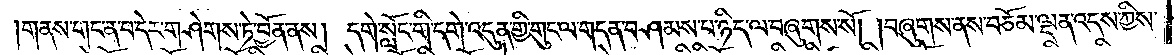གནས་གང་ན་བ་དེར་གཤེགས་ཏེ་བྱོན་ནས། དགེ་སློང་གི་དགེ་འདུན་གྱི་གུང་ལ་གདན་བཤམས་པ་ཉིད་ལ་བཞུགས་སོ། །བཞུགས་ནས་བཅོམ་ལྡན་འདས་ཀྱིས་
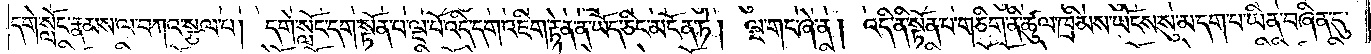དགེ་སློང་རྣམས་ལ་བཀའ་སྩལ་པ། དགེ་སློང་དག་སྟོན་པ་ལྔ་པོ་འདི་དག་འཇིག་རྟེན་ན་ཡོད་ཅིང་མངོན་ཏེ། ལྔ་གང་ཞེ་ན། འདི་ནི་སྟོན་པ་གཅིག་ནི་ཚུལ་ཁྲིམས་ཡོངས་སུ་མ་དག་པ་ཡིན་བཞིན་དུ་
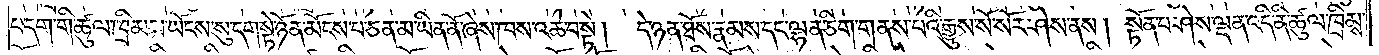བདག་གི་ཚུལ་ཁྲིམས་ཡོངས་སུ་དག་སྟེ་ཉོན་མོངས་པ་ཅན་མ་ཡིན་ནོ་ཞེས་ཁས་འཆེ་བ་སྟེ། དེ་ཉན་ཐོས་རྣམས་དང་ལྷན་ཅིག་གནས་པའི་རྒྱུས་སོ་སོར་ཤེས་ནས། སྟོན་པ་ཤེས་ལྡན་འདི་ནི་ཚུལ་ཁྲིམས་
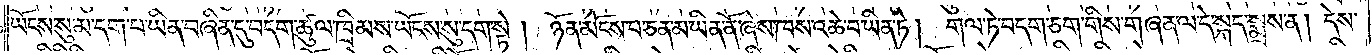ཡོངས་སུ་མ་དག་པ་ཡིན་བཞིན་དུ་བདག་ཚུལ་ཁྲིམས་ཡོངས་སུ་དག་སྟེ། ཉོན་མོངས་པ་ཅན་མ་ཡིན་ནོ་ཞེས་ཁས་འཆེ་བ་ཡིན་ཏེ། གལ་ཏེ་བདག་ཅག་གིས་གཞན་ལ་དེ་སྐད་སྨྲས་ན། དེས་
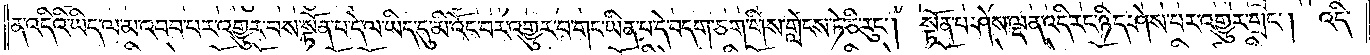ན་འདིའི་ཡིད་ལ་མ་འབབ་པར་འགྱུར་བས་སྟོན་པ་དེ་ལ་ཡིད་དུ་མི་འོང་བར་འགྱུར་བ་གང་ཡིན་པ་དེ་བདག་ཅག་གིས་གླེངས་ཏེ་ཅི་རུང༌། སྟོན་པ་ཤེས་ལྡན་འདི་རང་ཉིད་ཤེས་པར་འགྱུར་གྲང༌། །འདི་
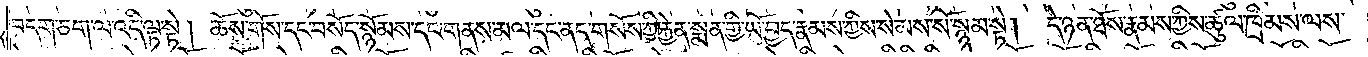བདག་ཅག་ལ་འདི་ལྟ་སྟེ། ཆོས་གོས་དང་བསོད་སྙོམས་དང་གནས་མལ་དང་ནད་གསོས་ཀྱི་རྐྱེན་སྨན་གྱི་ཡོ་བྱད་རྣམས་ཀྱིས་སེམས་སོ་སྙམ་སྟེ། དེ་ཉན་ཐོས་རྣམས་ཀྱིས་ཚུལ་ཁྲིམས་ལས་
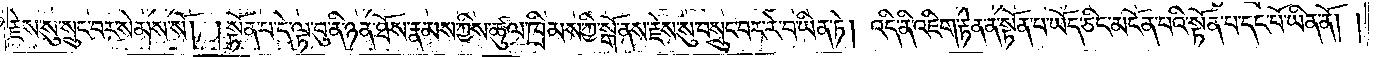རྗེས་སུ་སྲུང་བར་སེམས་སོ། །སྟོན་པ་དེ་ལྟ་བུ་ནི་ཉན་ཐོས་རྣམས་ཀྱིས་ཚུལ་ཁྲིམས་ཀྱི་སྒོ་ནས་རྗེས་སུ་བསྲུང་བར་རེ་བ་ཡིན་ཏེ། འདི་ནི་འཇིག་རྟེན་ན་སྟོན་པ་ཡོད་ཅིང་མངོན་པའི་སྟོན་པ་དང་པོ་ཡིན་ནོ། །
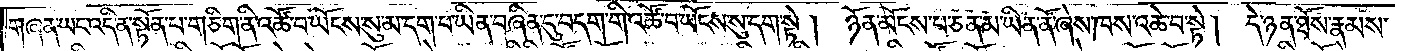གཞན་ཡང་འདི་ན་སྟོན་པ་གཅིག་ནི་འཚོ་བ་ཡོངས་སུ་མ་དག་པ་ཡིན་བཞིན་དུ་བདག་གི་འཚོ་བ་ཡོངས་སུ་དག་སྟེ།<gap>ཉོན་མོངས་པ་ཅན་མ་ཡིན་ནོ་ཞེས་ཁས་འཆེ་བ་སྟེ།  དེ་ཉན་ཐོས་རྣམས་
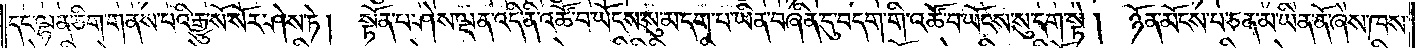དང་ལྷན་ཅིག་གནས་པའི་རྒྱུ་སོ་སོར་ཤེས་ཏེ། སྟོན་པ་ཤེས་ལྡན་འདི་ནི་འཚོ་བ་ཡོངས་སུ་མ་དག་པ་ཡིན་བཞིན་དུ་བདག་གི་འཚོ་བ་ཡོངས་སུ་དག་སྟེ། ཉོན་མོངས་པ་ཅན་མ་ཡིན་ནོ་ཞེས་ཁས་
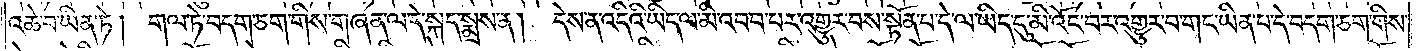འཆེ་བ་ཡིན་ཏེ། གལ་ཏེ་བདག་ཅག་གིས་གཞན་ལ་དེ་སྐད་སྨྲས་ན། དེས་ན་འདིའི་ཡིད་ལ་མི་འབབ་པར་འགྱུར་བས་སྟོན་པ་དེ་ལ་ཡིད་དུ་མི་འོང་བར་འགྱུར་བ་གང་ཡིན་པ་དེ་བདག་ཅག་གིས་
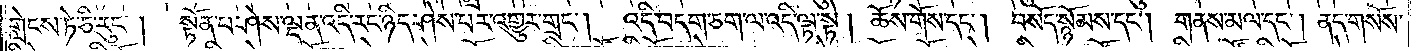གླེངས་ཏེ་ཅི་རུང༌།<gap>སྟོན་པ་ཤེས་ལྡན་འདི་རང་ཉིད་ཤེས་པར་འགྱུར་གྲང༌།<gap>འདི་བདག་ཅག་ལ་འདི་ལྟ་སྟེ། ཆོས་གོས་དང༌། བསོད་སྙོམས་དང༌། གནས་མལ་དང༌། ནད་གསོས་
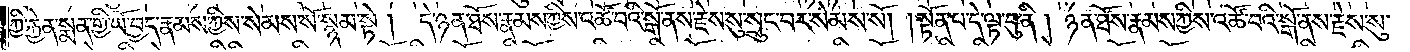ཀྱི་རྐྱེན་སྨན་གྱི་ཡོ་བྱད་རྣམས་ཀྱིས་སེམས་སོ་སྙམ་སྟེ། དེ་ཉན་ཐོས་རྣམས་ཀྱིས་འཚོ་བའི་སྒོ་ནས་རྗེས་སུ་སྲུང་བར་སེམས་སོ། །སྟོན་པ་དེ་ལྟ་བུ་ནི། ཉན་ཐོས་རྣམས་ཀྱིས་འཚོ་བའི་སྒོ་ནས་རྗེས་སུ་
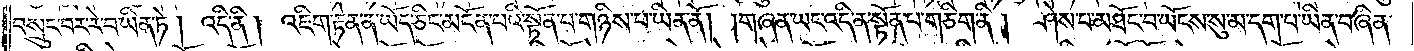བསྲུང་བར་རེ་བ་ཡིན་ཏེ། འདི་ནི། འཇིག་རྟེན་ན་ཡོད་ཅིང་མངོན་པའི་སྟོན་པ་གཉིས་པ་ཡིན་ནོ། །གཞན་ཡང་འདི་ན་སྟོན་པ་གཅིག་ནི།<gap>ཤེས་པ་མཐོང་བ་ཡོངས་སུ་མ་དག་པ་ཡིན་བཞིན་
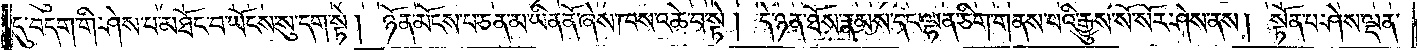དུ་བདག་གི་ཤེས་པ་མཐོང་བ་ཡོངས་སུ་དག་སྟེ། ཉོན་མོངས་པ་ཅན་མ་ཡིན་ནོ་ཞེས་ཁས་འཆེ་བ་སྟེ། དེ་ཉན་ཐོས་རྣམས་དང་ལྷན་ཅིག་གནས་པའི་རྒྱུས་སོ་སོར་ཤེས་ནས། སྟོན་པ་ཤེས་ལྡན་
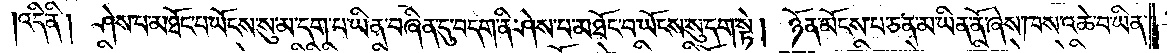འདི་ནི། ཤེས་པ་མཐོང་བ་ཡོངས་སུ་མ་དག་པ་ཡིན་བཞིན་དུ་བདག་ནི་ཤེས་པ་མཐོང་བ་ཡོངས་སུ་དག་སྟེ། ཉོན་མོངས་པ་ཅན་མ་ཡིན་ནོ་ཞེས་ཁས་འཆེ་བ་ཡིན་
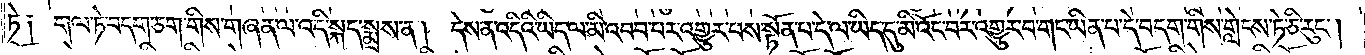ཏེ༑ གལ་ཏེ་བདག་ཅག་གིས་གཞན་ལ་འདི་སྐད་སྨྲས་ན། དེས་ན་འདིའི་ཡིད་ལ་མི་འབབ་པར་འགྱུར་བས་སྟོན་པ་དེ་ལ་ཡིད་དུ་མི་འོང་བར་འགྱུར་བ་གང་ཡིན་པ་དེ་བདག་གིས་གླེངས་ཏེ་ཅི་རུང༌།
